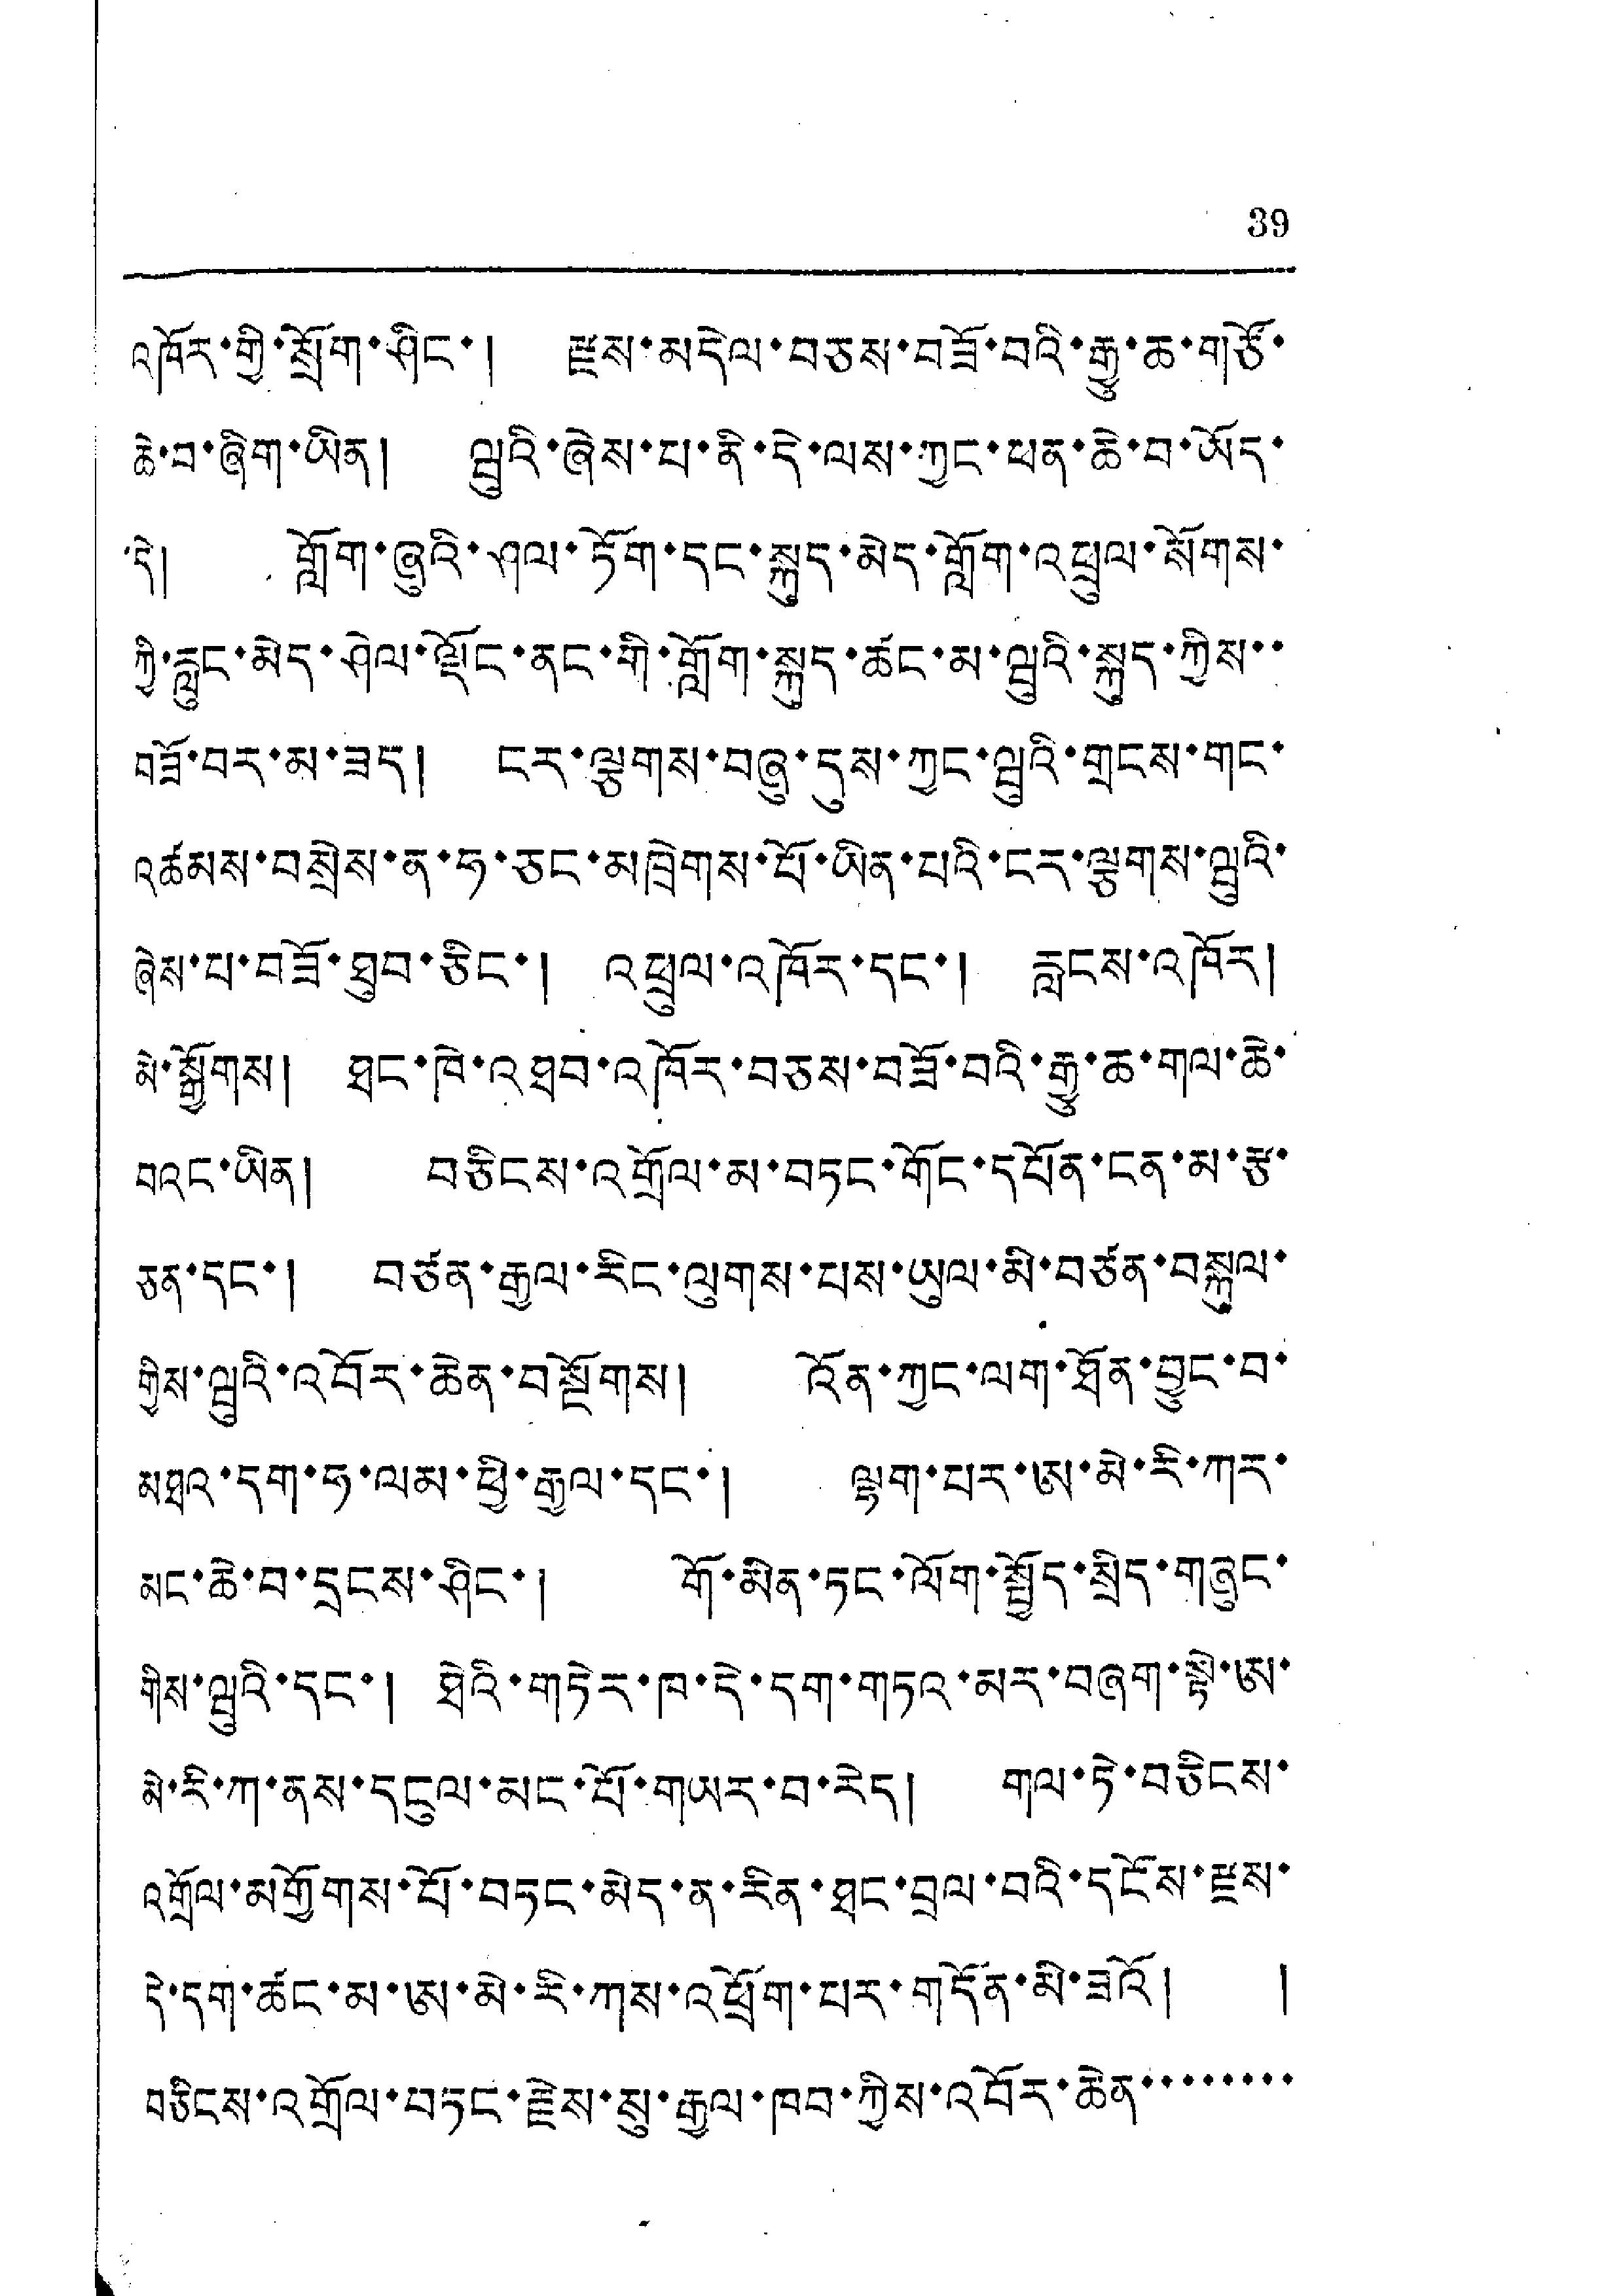39
འཁོར་གྱི་སྲོག་ཤིང་། རྫས་མདེལ་བཅས་བཟོ་བའི་རྒྱུ་ཆ་གཙོ་
ཆེ་བ་ཞིག་ཡིན། ཝུའི་ཞེས་པ་ནི་དེ་ལས་ཀྱང་ཕན་ཆེ་བ་ཡོད་
དེ། གློག་ཞུའི་ཤལ་ཏོག་དང་སྐུད་མེད་གློག་འཕྲུལ་སོགས་
ཀྱི་རླུང་མེད་ཤེལ་ལྡོང་ནང་གི་གློག་སྐུད་ཚང་མ་ཝུའི་སྐུད་ཀྱིས་་
བཟོ་བར་མ་ཟད། ངར་ལྕགས་བཞུ་དུས་ཀྱང་ཝུའི་གྲངས་གང་
འཚམས་བསྲེས་ན་ཧ་ཅང་མཁྲེགས་པོ་ཡིན་པའི་ངར་ལྕགས་ཝུའི་
ཞེས་པ་བཟོ་ཐུབ་ཅིང་། འཕྲུལ་འཁོར་དང་། རླངས་འཁོར།
མེ་སྒྱོགས། ཐང་ཁེ་འཐབ་འཁོར་བཅས་བཟོ་བའི་རྒྱུ་ཆ་གལ་ཆེ་
བའང་ཡིན། བཅིངས་འགྲོལ་མ་བཏང་གོང་དཔོན་ངན་མ་རྩ་
ཅན་དང་། བཙན་རྒྱལ་རིང་ལུགས་པས་ཡུལ་མི་བཙན་བསྐུལ་
གྱིས་ཝུའི་འབོར་ཆེན་བསྔོགས། འོན་ཀྱང་ལག་ཐོན་བྱུང་བ་
མཐའ་དག་ཧ་ལམ་ཕྱི་རྒྱལ་དང་། ལྷག་པར་ཨ་མེ་རི་ཀར་
མང་ཆེ་བ་དྲངས་ཤིང་། གོ་མིན་ཏང་ལོག་སྤྱོད་སྲིད་གཞུང་
གིས་ཝུའི་དང་། ཐེའི་གཏེར་ཁ་དེ་དག་གཏའ་མར་བཞག་སྟེ་ཨ་
མེ་རི་ཀ་ནས་དངུལ་མང་པོ་གཡར་བ་རེད། གལ་ཏེ་བཅིངས་
འགྲོལ་མགྱོགས་པོ་བཏང་མེད་ན་རིན་ཐང་བྲལ་བའི་དངོས་རྫས་
དེ་དག་ཚང་མ་ཨ་མེ་རི་ཀས་འཕྲོག་པར་གདོན་མི་ཟའོ། །
བཅིངས་འགྲོལ་གཏང་རྗེས་སུ་རྒྱལ་ཁབ་ཀྱིས་འབོར་ཆེན་་་་་་་་
